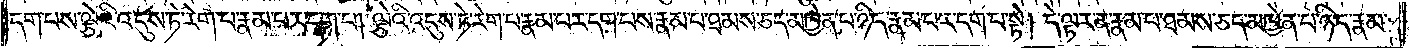དག་པས་ལྕེའི་འདུས་ཏེ་རེག་པ་རྣམ་པར་དག་པ། ལྕེའི་འདུས་ཏེ་རེག་པ་རྣམ་པར་དག་པས་རྣམ་པ་ཐམས་ཅད་མཁྱེན་པ་ཉིད་རྣམ་པར་དག་པ་སྟེ། དེ་ལྟར་ན་རྣམ་པ་ཐམས་ཅད་མཁྱེན་པ་ཉིད་རྣམ་
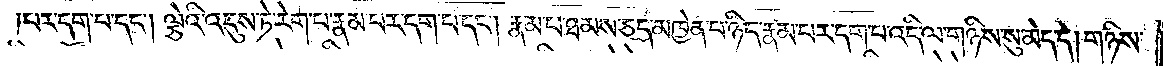པར་དག་པ་དང༌། ལྕེའི་འདུས་ཏེ་རེག་པ་རྣམ་པར་དག་པ་དང༌། རྣམ་པ་ཐམས་ཅད་མཁྱེན་པ་ཉིད་རྣམ་པར་དག་པ་འདི་ལ་གཉིས་སུ་མེད་དེ། གཉིས་
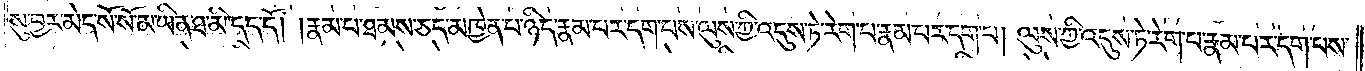སུ་བྱར་མེད་སོ་སོ་མ་ཡིན་ཐ་མི་དད་དོ། །རྣམ་པ་ཐམས་ཅད་མཁྱེན་པ་ཉིད་རྣམ་པར་དག་པས་ལུས་ཀྱི་འདུས་ཏེ་རེག་པ་རྣམ་པར་དག་པ། ལུས་ཀྱི་འདུས་ཏེ་རེག་པ་རྣམ་པར་དག་པས་
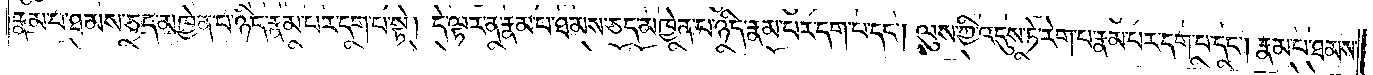རྣམ་པ་ཐམས་ཅད་མཁྱེན་པ་ཉིད་རྣམ་པར་དག་པ་སྟེ། དེ་ལྟར་ན་རྣམ་པ་ཐམས་ཅད་མཁྱེན་པ་ཉིད་རྣམ་པར་དག་པ་དང༌། ལུས་ཀྱི་འདུས་ཏེ་རེག་པ་རྣམ་པར་དག་པ་དང༌། རྣམ་པ་ཐམས་
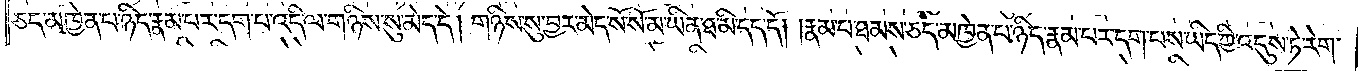ཅད་མཁྱེན་པ་ཉིད་རྣམ་པར་དག་པ་འདི་ལ་གཉིས་སུ་མེད་དེ། གཉིས་སུ་བྱར་མེད་སོ་སོ་མ་ཡིན་ཐ་མི་དད་དོ། །རྣམ་པ་ཐམས་ཅད་མཁྱེན་པ་ཉིད་རྣམ་པར་དག་པས་ཡིད་ཀྱི་འདུས་ཏེ་རེག་
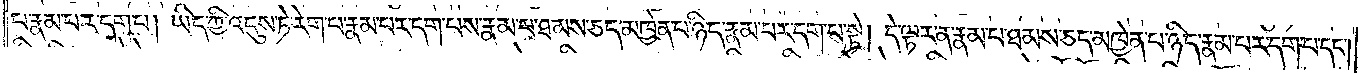པ་རྣམ་པར་དག་པ། ཡིད་ཀྱི་འདུས་ཏེ་རེག་པ་རྣམ་པར་དག་པས་རྣམ་པ་ཐམས་ཅད་མཁྱེན་པ་ཉིད་རྣམ་པར་དག་པ་སྟེ། དེ་ལྟར་ན་རྣམ་པ་ཐམས་ཅད་མཁྱེན་པ་ཉིད་རྣམ་པར་དག་པ་དང༌།
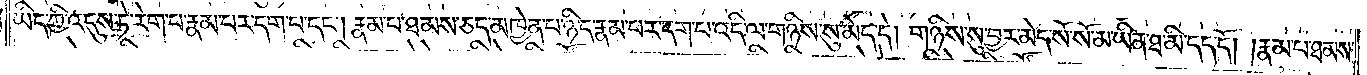ཡིད་ཀྱི་འདུས་ཏེ་རེག་པ་རྣམ་པར་དག་པ་དང༌། རྣམ་པ་ཐམས་ཅད་མཁྱེན་པ་ཉིད་རྣམ་པར་དག་པ་འདི་ལ་གཉིས་སུ་མེད་དེ། གཉིས་སུ་བྱར་མེད་སོ་སོ་མ་ཡིན་ཐ་མི་དད་དོ། །རྣམ་པ་ཐམས་
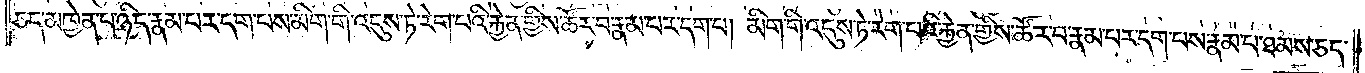ཅད་མཁྱེན་པ་ཉིད་རྣམ་པར་དག་པས་མིག་གི་འདུས་ཏེ་རེག་པའི་རྐྱེན་གྱིས་ཚོར་བ་རྣམ་པར་དག་པ། མིག་གི་འདུས་ཏེ་རེག་པའི་རྐྱེན་གྱིས་ཚོར་བ་རྣམ་པར་དག་པས་རྣམ་པ་ཐམས་ཅད་
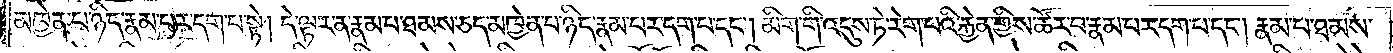མཁྱེན་པ་ཉིད་རྣམ་པར་དག་པ་སྟེ། དེ་ལྟར་ན་རྣམ་པ་ཐམས་ཅད་མཁྱེན་པ་ཉིད་རྣམ་པར་དག་པ་དང༌། མིག་གི་འདུས་ཏེ་རེག་པའི་རྐྱེན་གྱིས་ཚོར་བ་རྣམ་པར་དག་པ་དང༌། རྣམ་པ་ཐམས་
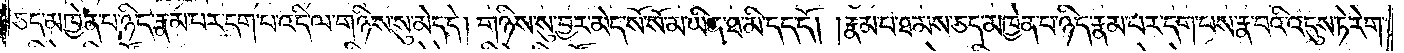ཅད་མཁྱེན་པ་ཉིད་རྣམ་པར་དག་པ་འདི་ལ་གཉིས་སུ་མེད་དེ། གཉིས་སུ་བྱར་མེད་སོ་སོ་མ་ཡིན་ཐ་མི་དད་དོ། །རྣམ་པ་ཐམས་ཅད་མཁྱེན་པ་ཉིད་རྣམ་པར་དག་པས་རྣ་བའི་འདུས་ཏེ་རེག་
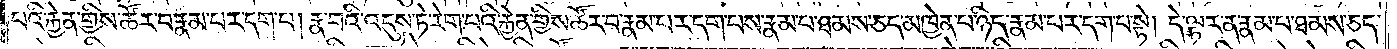པའི་རྐྱེན་གྱིས་ཚོར་བ་རྣམ་པར་དག་པ། རྣ་བའི་འདུས་ཏེ་རེག་པའི་རྐྱེན་གྱིས་ཚོར་བ་རྣམ་པར་དག་པས་རྣམ་པ་ཐམས་ཅད་མཁྱེན་པ་ཉིད་རྣམ་པར་དག་པ་སྟེ། དེ་ལྟར་ན་རྣམ་པ་ཐམས་ཅད་
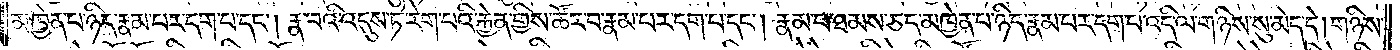མཁྱེན་པ་ཉིད་རྣམ་པར་དག་པ་དང༌། རྣ་བའི་འདུས་ཏེ་རེག་པའི་རྐྱེན་གྱིས་ཚོར་བ་རྣམ་པར་དག་པ་དང༌། རྣམ་པ་ཐམས་ཅད་མཁྱེན་པ་ཉིད་རྣམ་པར་དག་པ་འདི་ལ་གཉིས་སུ་མེད་དེ། གཉིས་
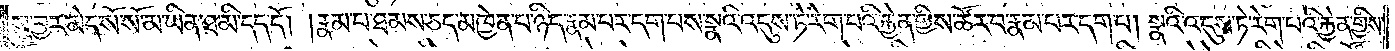སུ་བྱར་མེད་སོ་སོ་མ་ཡིན་ཐ་མི་དད་དོ། །རྣམ་པ་ཐམས་ཅད་མཁྱེན་པ་ཉིད་རྣམ་པར་དག་པས་སྣའི་འདུས་ཏེ་རེག་པའི་རྐྱེན་གྱིས་ཚོར་བ་རྣམ་པར་དག་པ། སྣའི་འདུས་ཏེ་རེག་པའི་རྐྱེན་གྱིས་
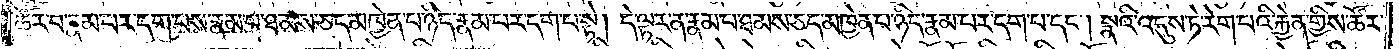ཚོར་བ་རྣམ་པར་དག་པས་རྣམ་པ་ཐམས་ཅད་མཁྱེན་པ་ཉིད་རྣམ་པར་དག་པ་སྟེ། དེ་ལྟར་ན་རྣམ་པ་ཐམས་ཅད་མཁྱེན་པ་ཉིད་རྣམ་པར་དག་པ་དང༌། སྣའི་འདུས་ཏེ་རེག་པའི་རྐྱེན་གྱིས་ཚོར་
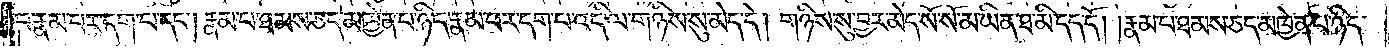བ་རྣམ་པར་དག་པ་དང༌། རྣམ་པ་ཐམས་ཅད་མཁྱེན་པ་ཉིད་རྣམ་པར་དག་པ་འདི་ལ་གཉིས་སུ་མེད་དེ། གཉིས་སུ་བྱར་མེད་སོ་སོ་མ་ཡིན་ཐ་མི་དད་དོ། །རྣམ་པ་ཐམས་ཅད་མཁྱེན་པ་ཉིད་
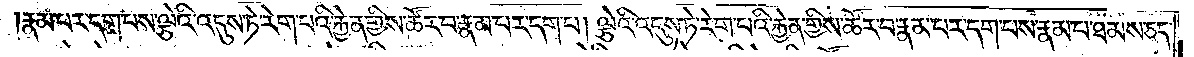རྣམ་པར་དག་པས་ལྕེའི་འདུས་ཏེ་རེག་པའི་རྐྱེན་གྱིས་ཚོར་བ་རྣམ་པར་དག་པ། ལྕེའི་འདུས་ཏེ་རེག་པའི་རྐྱེན་གྱིས་ཚོར་བ་རྣམ་པར་དག་པས་རྣམ་པ་ཐམས་ཅད་
